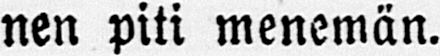nen piti menemän.
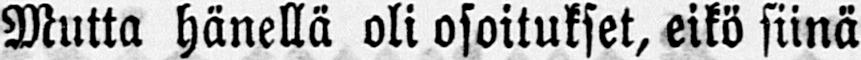Mutta hänellä oli osoitukset, eikö siinä
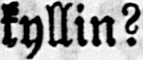kyllin?
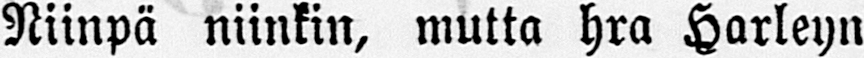Niinpä niinkin, mutta hra Harleyn
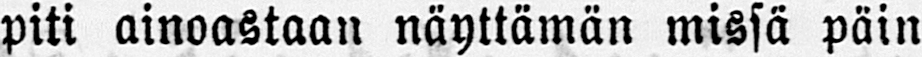piti ainoastaan näyttämän missä päin
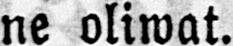ne oliwat.
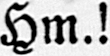Hm.!
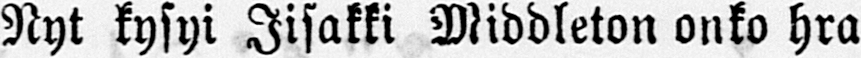Nyt kysyi Iisakki Middleton onko hra
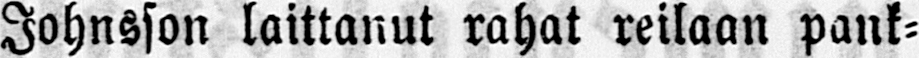Johnsson laittanut rahat reilaan pank-
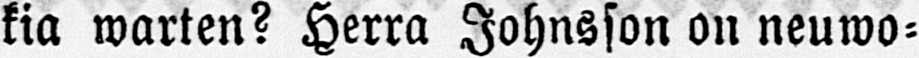kia warten? Herra Johnsson on neuwo-
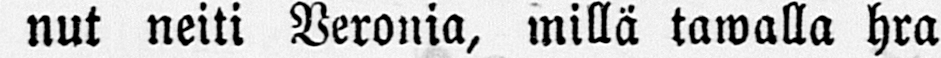nut neiti Veronia, millä tawalla hra
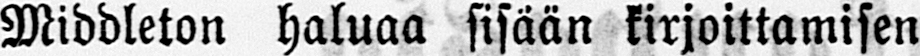Middleton haluaa sisään kirjoittamisen
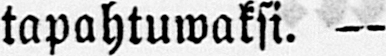tapahtuwaksi. —
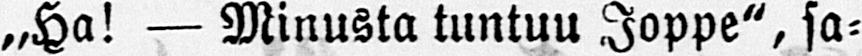„Ha! — Minusta tuntuu Joppe", sa-
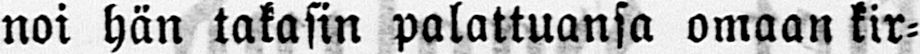noi hän takasin palattuansa omaan kir-
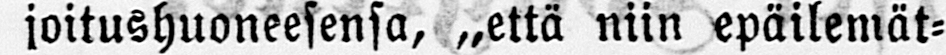joitushuoneesensa, „että niin epäilemät-
